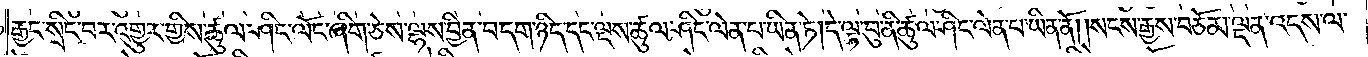རྒྱང་སྲིང་བར་འགྱུར་གྱིས་ཚུལ་ཤིང་ལོང་ཞིག་ཅེས་ལྷས་བྱིན་བདག་ཉིད་དང་ལྔས་ཚུལ་ཤིང་ལེན་པ་ཡིན་ཏེ། དེ་ལྟ་བུ་ནི་ཚུལ་ཤིང་ལེན་པ་ཡིན་ནོ། །སངས་རྒྱས་བཅོམ་ལྡན་འདས་ལ་
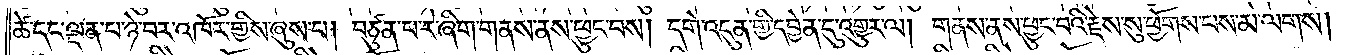ཚེ་དང་ལྡན་པ་ཉེ་བར་འཁོར་གྱིས་ཞུས་པ། བཙུན་པ་རེ་ཞིག་གནས་ནས་ཕྱུང་བས། དགེ་འདུན་གྱི་དབྱེན་དུ་འགྱུར་ལ། གནས་ནས་ཕྱུང་བའི་རྗེས་སུ་ཕྱོགས་པས་མ་ལགས།
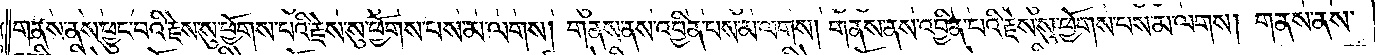གནས་ནས་ཕྱུང་བའི་རྗེས་སུ་ཕྱོགས་པའི་རྗེས་སུ་ཕྱོགས་པས་མ་ལགས། གནས་ནས་འབྱིན་པས་མ་ལགས། གནས་ནས་འབྱིན་པའི་རྗེས་སུ་ཕྱོགས་པས་མ་ལགས། གནས་ནས་
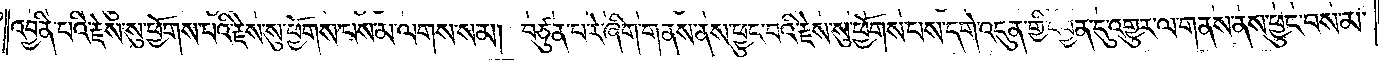འབྱིན་པའི་རྗེས་སུ་ཕྱོགས་པའི་རྗེས་སུ་ཕྱོགས་པས་མ་ལགས་སམ། བཙུན་པ་རེ་ཞིག་གནས་ནས་ཕྱུང་བའི་རྗེས་སུ་ཕྱོགས་པས་དགེ་འདུན་གྱི་དབྱེན་དུ་འགྱུར་ལ་གནས་ནས་ཕྱུང་བས་མ་
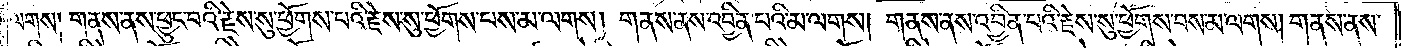ལགས། གནས་ནས་ཕྱུང་བའི་རྗེས་སུ་ཕྱོགས་པའི་རྗེས་སུ་ཕྱོགས་པས་མ་ལགས། གནས་ནས་འབྱིན་པའི་མ་ལགས། གནས་ནས་འབྱིན་པའི་རྗེས་སུ་ཕྱོགས་བས་མ་ལགས། གནས་ནས་
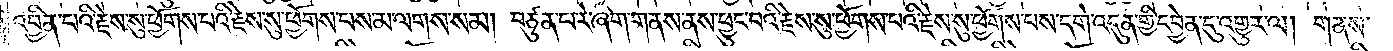འབྱིན་པའི་རྗེས་སུ་ཕྱོགས་པའི་རྗེས་སུ་ཕྱོགས་པས་མ་ལགས་སམ། བཙུན་པ་རེ་ཞིག་གནས་ནས་ཕྱུང་བའི་རྗེས་སུ་ཕྱོགས་པའི་རྗེས་སུ་ཕྱོགས་པས་དགེ་འདུན་གྱི་དབྱེན་དུ་འགྱུར་ལ། གནས་
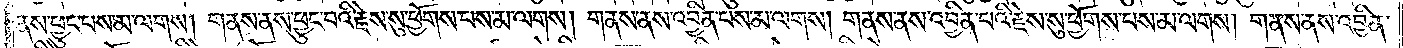ནས་ཕྱུང་བས་མ་ལགས། གནས་ནས་ཕྱུང་བའི་རྗེས་སུ་ཕྱོགས་པས་མ་ལགས། གནས་ནས་འབྱིན་པས་མ་ལགས། གནས་ནས་འབྱིན་པའི་རྗེས་སུ་ཕྱོགས་པས་མ་ལགས། གནས་ནས་འབྱིན་
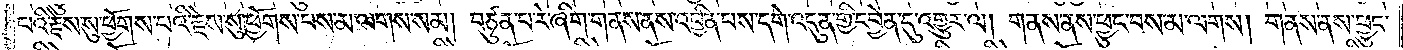པའི་རྗེས་སུ་ཕྱོགས་པའི་རྗེས་སུ་ཕྱོགས་པས་མ་ལགས་སམ། བཙུན་པ་རེ་ཞིག་གནས་ནས་འབྱིན་པས་དགེ་འདུན་གྱི་དབྱེན་དུ་འགྱུར་ལ། གནས་ནས་ཕྱུང་བས་མ་ལགས། གནས་ནས་ཕྱུང་
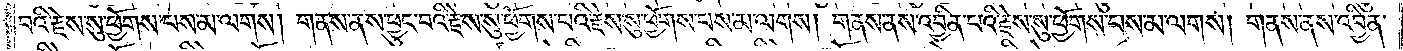བའི་རྗེས་སུ་ཕྱོགས་པས་མ་ལགས། གནས་ནས་ཕྱུང་བའི་རྗེས་སུ་ཕྱོགས་པའི་རྗེས་སུ་ཕྱོགས་པས་རྗེས་སུ་ཕྱོགས་པས་མ་ལགས། གནས་ནས་འབྱིན་པའི་རྗེས་སུ་ཕྱོགས་པས་མ་ལགས། གནས་ནས་འབྱིན་
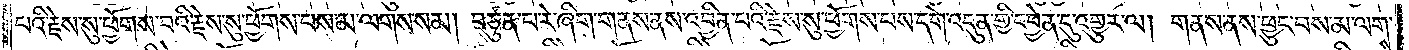པའི་རྗེས་སུ་ཕྱོགས་པའི་རྗེས་སུ་ཕྱོགས་པས་མ་ལགས་སམ། བཙུན་པ་རེ་ཞིག་གནས་ནས་འབྱིན་པའི་རྗེས་སུ་ཕྱོགས་པས་དགེ་འདུན་གྱི་དབྱེན་དུ་འགྱུར་ལ། གནས་ནས་ཕྱུང་བས་མ་ལགས་
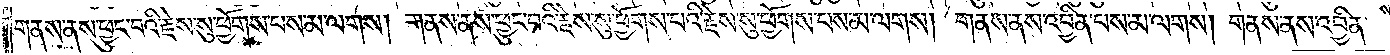གནས་ནས་ཕྱུང་བའི་རྗེས་སུ་ཕྱོགས་པས་མ་ལགས། གནས་ནས་ཕྱུང་བའི་རྗེས་སུ་ཕྱོགས་པའི་རྗེས་སུ་ཕྱོགས་པས་མ་ལགས། གནས་ནས་འབྱིན་པས་མ་ལགས། གནས་ནས་འབྱིན་
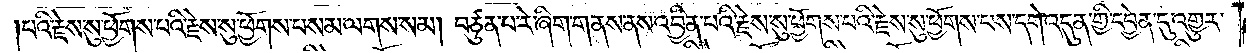།པའི་རྗེས་སུ་ཕྱོགས་པའི་རྗེས་སུ་ཕྱོགས་པས་མ་ལགས་སམ། བཙུན་པ་རེ་ཞིག་གནས་ནས་འབྱིན་པའི་རྗེས་སུ་ཕྱོགས་པའི་རྗེས་སུ་ཕྱོགས་པས་དགེ་འདུན་གྱི་དབྱེན་དུ་འགྱུར་
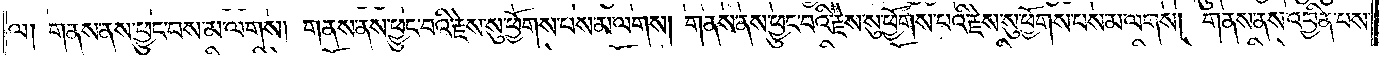ལ། གནས་ནས་ཕྱུང་བས་མ་ལགས། གནས་ནས་ཕྱུང་བའི་རྗེས་སུ་ཕྱོགས་པས་མ་ལགས། གནས་ནས་ཕྱུང་བའི་རྗེས་སུ་ཕྱོགས་པས་རྗེས་སུ་ཕྱོགས་པས་མ་ལགས། གནས་ནས་འབྱིན་པས་
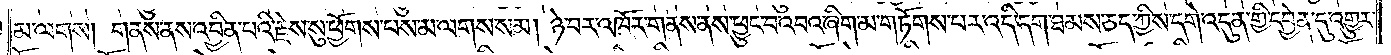མ་ལགས། གནས་ནས་འབྱིན་པའི་རྗེས་སུ་ཕྱོགས་པས་མ་ལགས་སམ། ཉེ་བར་འཁོར་གནས་ནས་ཕྱུང་བ་འབའ་ཞིག་མ་གཏོགས་པར་འདི་དག་ཐམས་ཅད་ཀྱིས་དགེ་འདུན་གྱི་དབྱེན་དུ་འགྱུར་
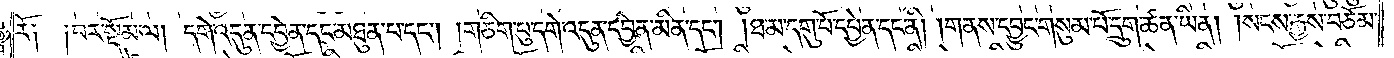རོ༑ ༑བར་སྡོམ་ལ། དགེ་འདུན་དབྱེན་དང་མཐུན་པ་དང༌། །གཅིག་པུ་དགེ་འདུན་དབྱེན་མིན་དང༌། །ཐ་མ་དགུ་པོ་དབྱེན་དང་ནི། །གནས་དབྱུང་གསུམ་པོ་དྲུག་ཚན་ཡིན། །སངས་རྒྱས་བཅོམ་
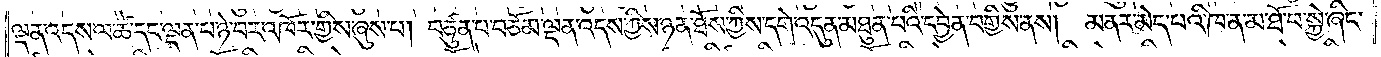ལྡན་འདས་ལ་ཚེ་དང་ལྡན་པ་ཉེ་བར་འཁོར་གྱིས་ཞུས་པ། བཙུན་པ་བཅོམ་ལྡན་འདས་ཀྱིས་ཉན་ཐོས་ཀྱིས་དགེ་འདུན་མཐུན་པའི་དབྱེན་བགྱིས་ནས། མནར་མེད་པའི་ཁ་ན་མ་ཐོ་བ་སྐྱེ་ཞིང་
